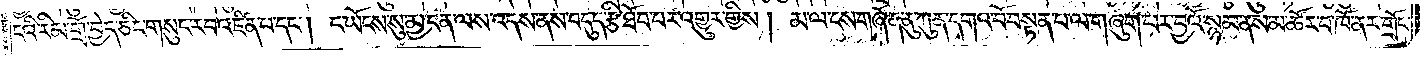ངའི་རིམ་གྲོ་བྱེད་ཅིང་གསུང་རབ་འཛིན་པ་དང༌། ང་ཡོངས་སུ་མྱ་ངན་ལས་འདས་ནས་བདུད་རྩི་ཐོབ་པར་འགྱུར་གྱིས། མ་ལ་ངས་གཞོན་ནུ་ཀུན་དགའ་བོ་བསྟན་པ་ལ་གཞུག་པར་བྱའོ་སྙམ་ནས་མ་ཚོར་བ་ཁོ་ནར་གྲོང་
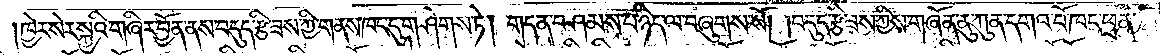།ཁྱེར་སེར་སྐྱའི་གཞིར་བྱོན་ནས་བདུད་རྩི་ཟས་ཀྱི་གནས་ཁང་དུ་གཤེགས་ཏེ། གདན་བཤམས་པ་ཉིད་ལ་བཞུགས་སོ། །བདུད་རྩི་ཟས་ཀྱིས་གཞོན་ནུ་ཀུན་དགའ་བོ་ཁང་ཕྲན་
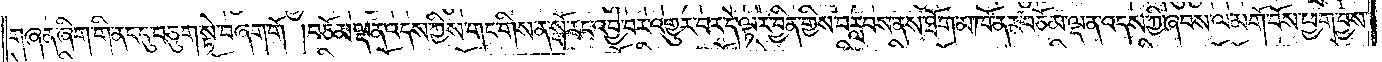གཞན་ཞིག་གི་ནང་དུ་བཅུག་སྟེ་བཞག་གོ །བཅོམ་ལྡན་འདས་ཀྱིས་གང་གིས་ན་སྒོ་རང་འབྱེ་བར་འགྱུར་བར་དེ་ལྟར་བྱིན་གྱིས་བརླབས་ནས་ཐོག་མ་ཁོ་ནར་བཅོམ་ལྡན་འདས་ཀྱིས་ཞབས་ལ་མགོ་བོས་ཕྱག་བྱས་
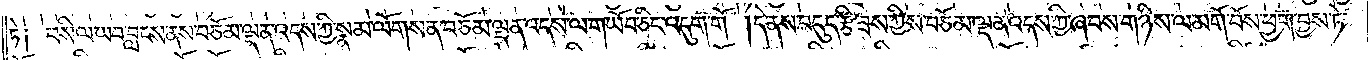ཏེ། བསིལ་ཡབ་བླངས་ནས་བཅོམ་ལྡན་འདས་ཀྱི་སྣམ་ལོགས་ན་བཅོམ་ལྡན་འདས་ལ་གཡོབ་ཅིང་འདུག་གོ །དེ་ནས་བདུད་རྩི་ཟས་ཀྱིས་བཅོམ་ལྡན་འདས་ཀྱི་ཞབས་གཉིས་ལ་མགོ་བོས་ཕྱག་བྱས་ཏེ་
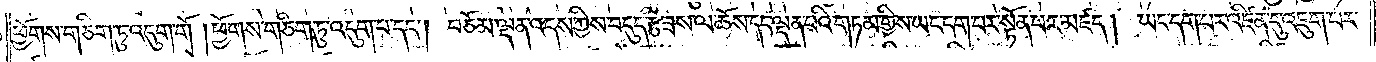ཕྱོགས་གཅིག་ཏུ་འདུག་གོ །ཕྱོགས་གཅིག་ཏུ་འདུག་པ་དང༌། བཅོམ་ལྡན་འདས་ཀྱིས་བདུད་རྩི་ཟས་ལ་ཆོས་དང་ལྡན་པའི་གཏམ་གྱིས་ཡང་དག་པར་སྟོན་པར་མཛད། ཡང་དག་པར་འཛིན་དུ་འཇུག་པར་
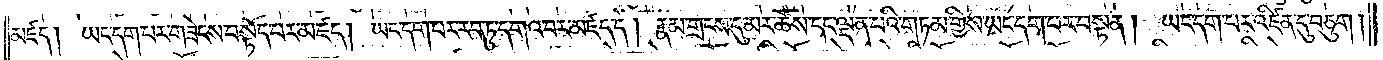མཛད། ཡང་དག་པར་གཟེངས་བསྟོད་པར་མཛད། ཡང་དག་པར་རབ་ཏུ་དགའ་བར་མཛད་དོ། རྣམ་གྲངས་དུ་མར་ཆོས་དང་ལྡན་པའི་གཏམ་གྱིས་ཡང་དག་པར་བསྟན། ཡང་དག་པར་འཛིན་དུ་བཅུག །
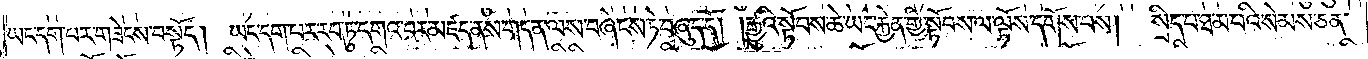ཡང་དག་པར་གཟེངས་བསྟོད། ཡང་དག་པར་རབ་ཏུ་དགའ་བར་མཛད་ནས་གདན་ལས་བཞེངས་ཏེ་བཞུད་དོ། །རྒྱུའི་སྟོབས་ཆེ་ཡང་རྐྱེན་གྱི་སྟོབས་ལ་ལྟོས་དགོས་པས།<gap>སྲིད་པ་ཐ་མ་པའི་སེམས་ཅན་
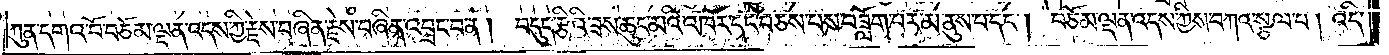ཀུན་དགའ་བོ་བཅོམ་ལྡན་འདས་ཀྱི་རྗེས་བཞིན་རྗེས་བཞིན་འབྲང་བ་ན། བདུད་རྩིའི་ཟས་ཆུང་མའི་འཁོར་དང་བཅས་པས་བཟློག་པར་མ་ནུས་པ་དང༌། བཅོམ་ལྡན་འདས་ཀྱིས་བཀའ་སྩལ་པ། འདི་
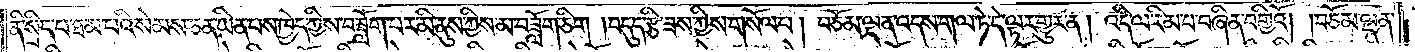ནི་སྲིད་པ་ཐ་མ་པའི་སེམས་ཅན་ཡིན་པས་ཁྱེད་ཀྱིས་བཟློག་པར་མི་ནུས་ཀྱིས་མ་བཟློག་ཅིག །བདུད་རྩི་ཟས་ཀྱིས་གསོལ་པ། བཅོམ་ལྡན་འདས་གལ་ཏེ་དེ་ལྟར་གྱུར་ན། འདི་ལ་རིམ་པ་བཞིན་བགྱིའོ། །བཅོམ་ལྡན་
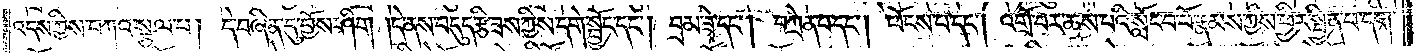འདས་ཀྱིས་བཀའ་སྩལ་པ། དེ་བཞིན་དུ་བྱོས་ཤིག །དེ་ནས་བདུད་རྩི་ཟས་ཀྱིས་དགེ་སྦྱོང་དང༌། བྲམ་ཟེ་དང༌། བཀྲེན་པ་དང༌། ཕོངས་པ་དང༌། འགྲོ་བར་ཆས་པའི་སློང་བ་པོ་རྣམས་ཀྱིས་ཕྱིར་སྦྱིན་པ་དག་
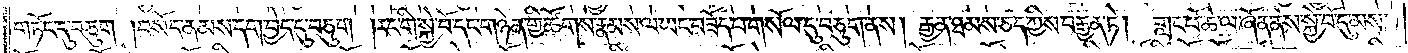གཏོང་དུ་བཅུག །བསོད་ནམས་དག་བྱེད་དུ་བཅུག །རང་གི་སྐྱེ་བོ་དང་གཉེན་གྱི་ཚོགས་རྣམས་ལ་ཡང་གཟོད་པ་གསོལ་དུ་བཅུག་ནས། རྒྱན་ཐམས་ཅད་ཀྱིས་བརྒྱན་ཏེ། གླང་པོ་ཆེ་ལ་ཞོན་ནས་སྐྱེ་བོ་དུ་མས་
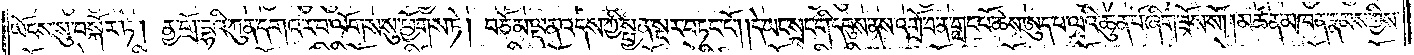ཡོངས་སུ་བསྐོར་ཏེ། ནྱ་གྲོ་དྷའི་ཀུན་དགའ་ར་བ་ལོགས་སུ་ཕྱོགས་ཏེ། བཅོམ་ལྡན་འདས་ཀྱི་སྤྱན་སྔར་བཏང་ངོ༌། །དེ་ཡང་སྲང་གི་དབུས་ནས་འགྲོ་བ་ན་གླང་པོ་ཆེས་ཨུཏྤ་ལའི་ཆུན་པོ་ཞིག་ཟོས་སོ། །མཚན་མཁན་རྣམས་ཀྱིས་
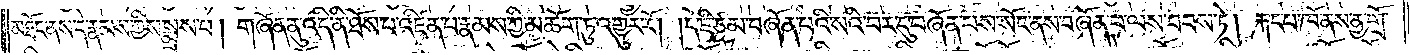མཐོང་ནས་དེ་རྣམས་ཀྱིས་སྨྲས་པ། གཞོན་ནུ་འདི་ནི་ཐོས་པ་འཛིན་པ་རྣམས་ཀྱི་མཆོག་ཏུ་འགྱུར་རོ། །དེ་ཇི་ཙམ་བཞོན་པའི་སའི་བར་དུ་བཞོན་པས་སོང་ནས་བཞོན་པ་ལས་བབས་ཏེ། རྐང་པ་ཁོ་ནས་ནྱ་གྲོ་
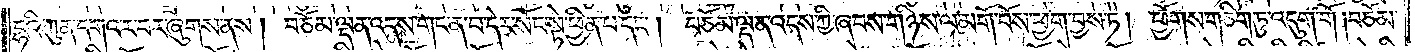དྷའི་ཀུན་དགའ་ར་བར་ཞུགས་ནས། བཅོམ་ལྡན་འདས་གང་ན་བ་དེར་སོང་སྟེ་ཕྱིན་པ་དང༌།   བཅོམ་ལྡན་འདས་ཀྱི་ཞབས་གཉིས་ལ་མགོ་བོས་ཕྱག་བྱས་ཏེ། ཕྱོགས་གཅིག་ཏུ་འདུག་གོ །བཅོམ་
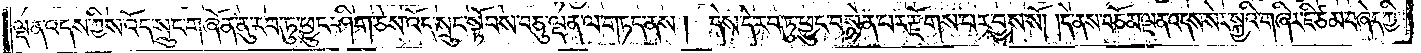ལྡན་འདས་ཀྱིས་འོད་སྲུང་གཞོན་ནུ་རབ་ཏུ་ཕྱུང་ཤིག་ཅེས་འོད་སྲུང་སྟོབས་བཅུ་ལྡན་ལ་གཏད་ནས། དེས་དེ་རབ་ཏུ་ཕྱུང་བསྙེན་པར་རྫོགས་པར་བྱས་སོ། །དེ་ནས་བཅོམ་ལྡན་འདས་སེར་སྐྱའི་གཞིར་ཇི་ཙམ་བཞེད་ཀྱི་
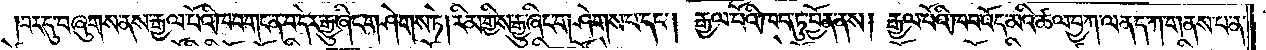།བར་དུ་བཞུགས་ནས་རྒྱལ་པོའི་ཁབ་གང་ན་བ་དེར་རྒྱུ་ཞིང་གཤེགས་ཏེ། རིམ་གྱིས་རྒྱུ་ཞིང་གཤེགས་པ་དང༌། རྒྱལ་པོའི་ཁབ་ཏུ་བྱོན་ནས། རྒྱལ་པོའི་ཁབ་འོད་མའི་ཚལ་བྱ་ཀ་ལན་ཀ་གནས་པ་ན་
